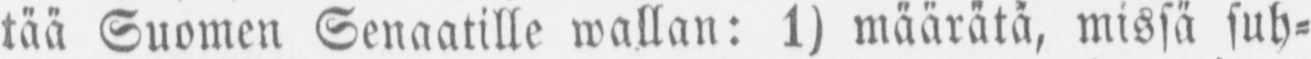tää Suomen Senaatille wallan: 1) määrätä, missä suh-
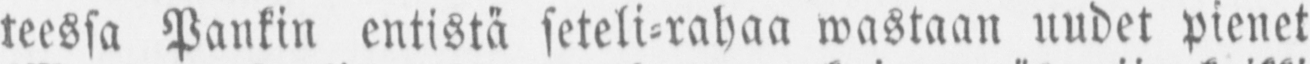teessa Pankin entistä seteli-rahaa wastaan uudet pienet
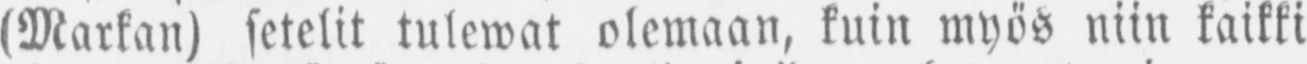(Markan) setelit tulewat olemaan, kuin myös niin kaikki
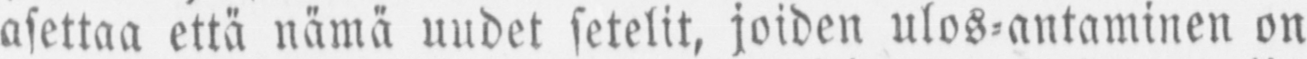asettaa että nämä uudet setelit, joiden ulos-antaminen on
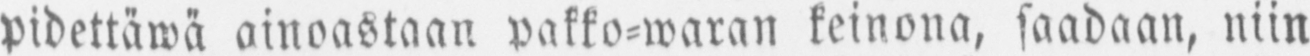pidettäwä ainoastaan pakko-waran keinona, saadaan, niin
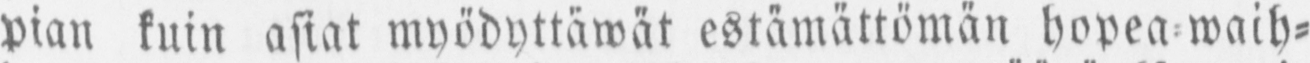pian kuin asiat myödyttawät estämättömän hopea-waih-
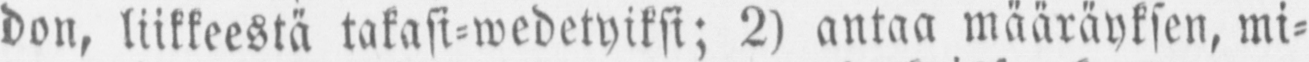don, liikkeestä takasi-wedetyiksi; 2) antaa määräyksen, mi-
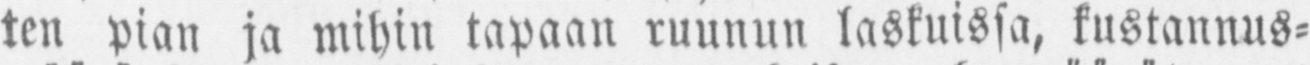ten pian ja mihin tapaan ruunun laskuissa, kustannus-
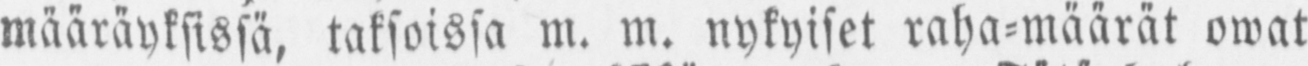määräyksissä, taksoissa m. m. nykyiset raha-määrät owat
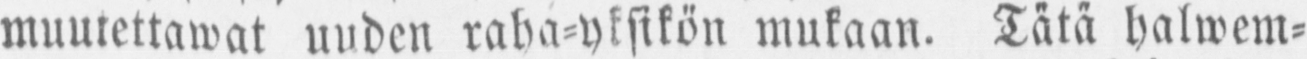muutettawat uuden raha-yksikön mukaan. Tätä halwem-
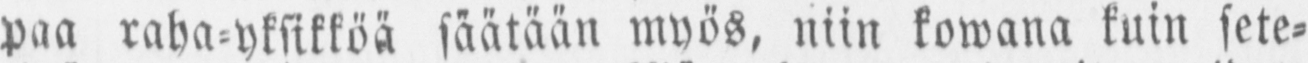paa raha-yksikköä säätään myös, niin kowana kuin sete-
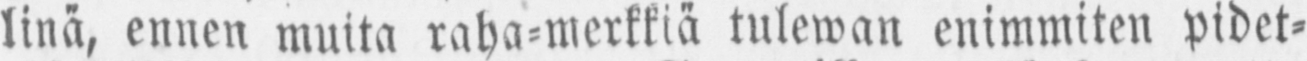linä, ennen muita raha-merkkiä tulewan enimmiten pidet-
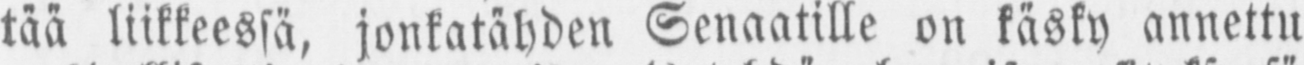kää liikkeessä, jonkatähden Senaatille on käsky annettu
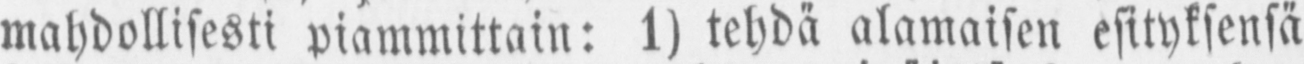mahdollisesti piammittain: 1) tehdä alamaisen esityksensä
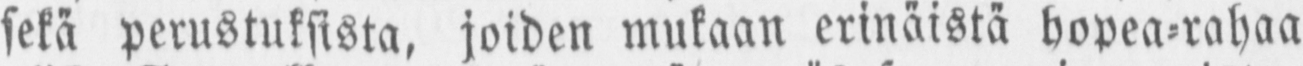sekä perustuksista, joiden mukaan erinäistä hopea-rahaa
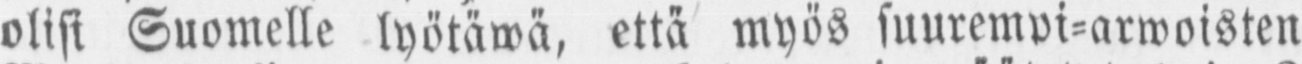olisi Suomelle lyötäwä, että myös suurempi-arwoisten
